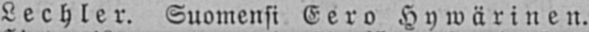Lechler. Suomensi Eero Hywärinen.
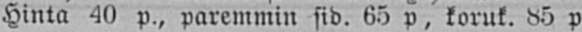Hinta 40 p., paremmin sid. 65 p, koruk. 85 p.
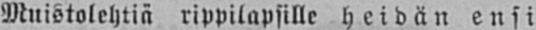Muistolehtiä rippilapsille heidän ensi
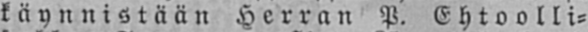käynnistään Herran P. Ehtoolli-
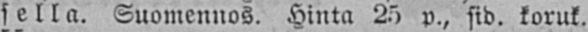sella. Suomennos. Hinta 25 p., sid. koruk.
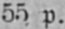55 p.
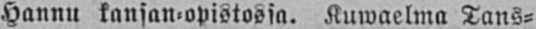Hannu kansan-opistossa. Kuwaelma Tans-
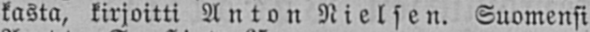kasta, kirjoitti Anton Nielsen. Suomensi
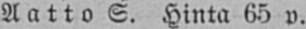Aatto S. Hinta 65 v.
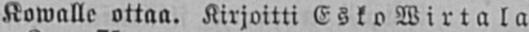Kowalle ottaa. Kirjoitti Esko Wirtala
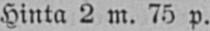Hinta 2 m. 75 p.
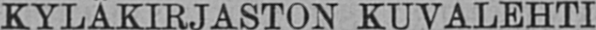KYLÄKIRJASTON KUVALEHTI.
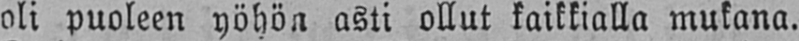oli puoleen yöhön asti ollut kaikkialla mukana.
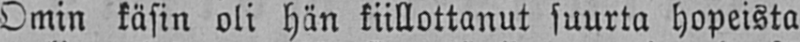Omin käsin oli hän kiillottanut suurta hopeista
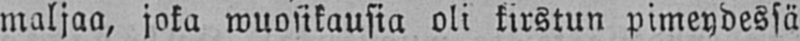maljaa, joka wuosikausia oli kirstun pimeydessä
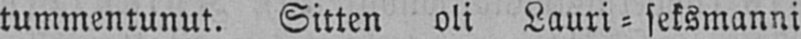tummentunut. Sitten oli Lauri - seksmanni
